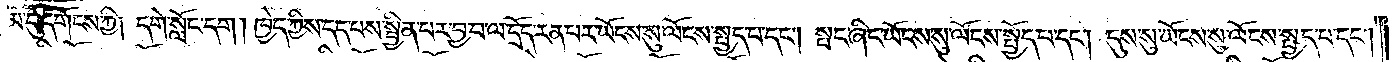སྙམ་དུ་དགོངས་ཀྱི། དགེ་སློང་དག། ཁྱེད་ཀྱིས་དད་པས་སྦྱིན་པར་བྱ་བ་ལ་དྲོད་རན་པར་ཡོངས་སུ་ལོངས་སྤྱད་པ་དང༌། སྤང་ཞིང་ཡོངས་སུ་ལོངས་སྤྱོད་པ་དང༌། དུས་སུ་ཡོངས་སུ་ལོངས་སྤྱད་པ་དང༌།
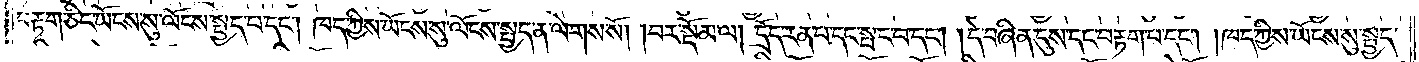བརྟག་ཅིང་ཡོངས་སུ་ལོངས་སྤྱད་པ་དང༌། ཁད་ཀྱིས་ཡོངས་སུ་ལོངས་སྤྱད་ན་ལེགས་སོ། །བར་སྡོམ་ལ། དྲོད་རན་པ་དང་སྤང་བ་དང༌། །དེ་བཞིན་དུས་དང་བརྟག་པ་དང༌། །ཁད་ཀྱིས་ཡོངས་སུ་སྤྱད་
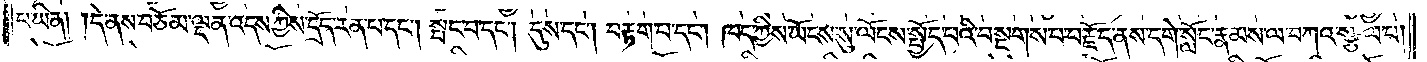པ་ཡིན། །དེ་ནས་བཅོམ་ལྡན་འདས་ཀྱིས་དྲོད་རན་པ་དང༌། སྤང་བ་དང༌། དུས་དང༌། བརྟག་པ་དང༌། ཁད་ཀྱིས་ཡོངས་སུ་ལོངས་སྤྱོད་པའི་བསྔགས་པ་བརྗོད་ནས་དགེ་སློང་རྣམས་ལ་བཀའ་སྩལ་པ།
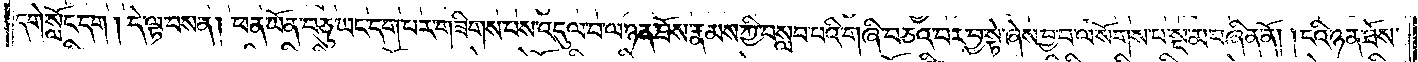དགེ་སློང་དག །དེ་ལྟ་བས་ན། ཕན་ཡོན་བཅུ་ཡང་དག་པར་གཟིགས་པས་འདུལ་བ་ལ་ཉན་ཐོས་རྣམས་ཀྱི་བསླབ་པའི་གཞི་བཅའ་བར་བྱ་སྟེ་ཞེས་བྱ་བ་ལ་སོགས་པ་སྔ་མ་བཞིན་ནོ། །ངའི་ཉན་ཐོས་
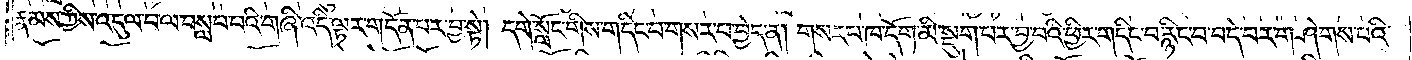རྣམས་ཀྱིས་འདུལ་བ་ལ་བསླབ་པའི་གཞི་འདི་ལྟར་གདོན་པར་བྱ་སྟེ། དགེ་སློང་གིས་གདིང་བ་གསར་པ་བྱེད་ན། གསར་པ་ཁ་དོག་མི་སྡུག་པར་བྱ་བའི་ཕྱིར་གདིང་བ་རྙིང་བ་བདེ་བར་གཤེགས་པའི་
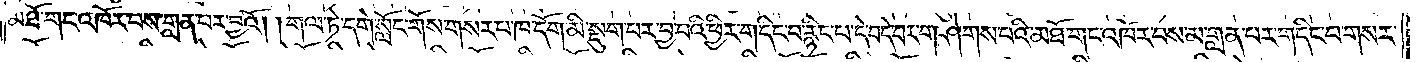མཐོ་གང་འཁོར་བས་གླན་པར་བྱའོ། །གལ་ཏེ་དགེ་སློང་གོས་གསར་པ་ཁ་དོག་མི་སྡུག་པར་བྱ་བའི་ཕྱིར་གདིང་བ་རྙིང་པ་དེ་བདེ་བར་གཤེགས་པའི་མཐོ་གང་འཁོར་བས་མ་གླན་པར་གདིང་བ་གསར་
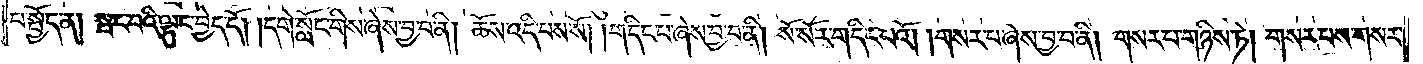པ་སྤྱོད་ན། སྤང་བའི་ལྟུང་བྱེད་དོ། །དགེ་སློང་གིས་ཞེས་བྱ་བ་ནི། ཆོས་འདི་པས་སོ། །གདིང་བ་ཞེས་བྱ་བ་ནི། སོ་སོར་གདིང་པའོ། །གསར་པ་ཞེས་བྱ་བ་ནི། གསར་པ་གཉིས་ཏེ། གསར་པས་གསར་
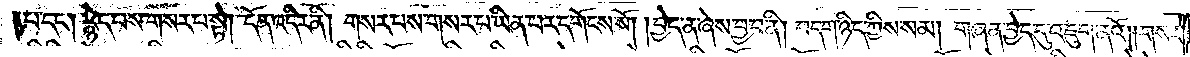པ་དང༌། རྙེད་པས་གསར་པ་སྟེ། དོན་འདིར་ནི། གསར་པས་གསར་པ་ཡིན་པར་དགོངས་སོ། །བྱེད་ན་ཞེས་བྱ་བ་ནི། བདག་ཉིད་ཀྱིས་སམ། གཞན་བྱེད་དུ་འཇུག་ནའོ། །གསར་
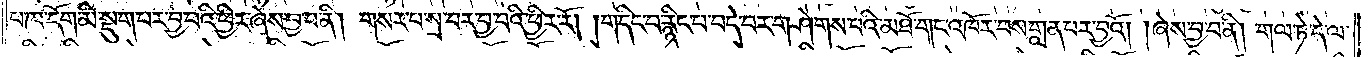པ་ཁ་དོག་མི་སྡུག་པར་བྱ་བའི་ཕྱིར་ཞེས་བྱ་བ་ནི། གསར་པ་སྲ་བར་བྱ་བའི་ཕྱིར་རོ། །གདིང་བ་རྙིང་པ་བདེ་བར་གཤེགས་པའི་མཐོ་གང་འཁོར་བས་གླན་པར་བྱའོ། །ཞེས་བྱ་བ་ནི། གལ་ཏེ་དེ་ལ་
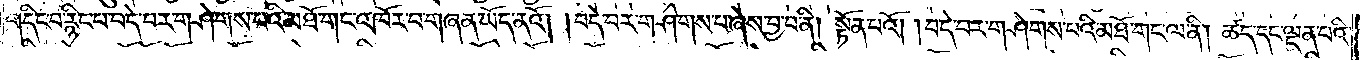གདིང་བ་རྙིང་བ་བདེ་བར་གཤེགས་པའི་མཐོ་གང་འཁོར་བ་གཞན་ཡོད་ནའོ། །བདེ་བར་གཤེགས་པ་ཞེས་བྱ་བ་ནི། སྟོན་པའོ། །བདེ་བར་གཤེགས་པའི་མཐོ་གང་ལ་ནི། ཚད་དང་ལྡན་པའི་
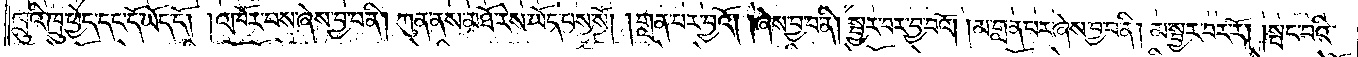ཁྲུའི་ཁྲུ་ཕྱེད་དང་དོ་ཡོད་དོ། །འཁོར་བས་ཞེས་བྱ་བ་ནི། ཀུན་ནས་མཐོ་རེས་ཡོད་པས་སོ། །གླན་པར་བྱའོ། །ཞེས་བྱ་བ་ནི། སྦྱར་བར་བྱ་བའོ། །མ་གླན་པར་ཞེས་བྱ་བ་ནི། མ་སྦྱར་བར་རོ། །སྤང་བའི་
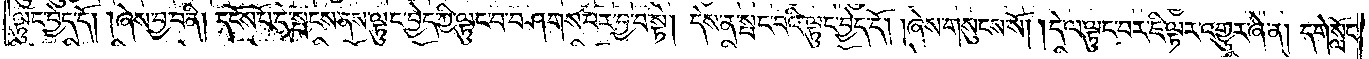ལྟུང་བྱེད་དོ། །ཞེས་བྱ་བ་ནི། དངོས་པོ་དེ་སྤངས་ནས་ལྟུང་བྱེད་ཀྱི་ལྟུང་བ་བཤགས་པར་བྱ་བ་སྟེ། དེས་ན་སྤང་བའི་ལྟུང་བྱེད་དོ། །ཞེས་གསུངས་སོ། །དེ་ལ་ལྟུང་བར་ཇི་ལྟར་འགྱུར་ཞེ་ན། དགེ་སློང་
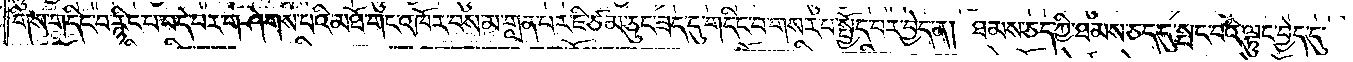གིས་གདིང་བ་རྙིང་པ་བདེ་བར་གཤེགས་པའི་མཐོ་གང་འཁོར་བས་མ་གླན་པར་ཇི་ཙམ་ཅུང་ཟད་དུ་གདིང་བ་གསར་པ་སྤྱོད་པར་བྱེད་ན། ཐམས་ཅད་ཀྱི་ཐམས་ཅད་དུ་སྤང་བའི་ལྟུང་བྱེད་དུ་
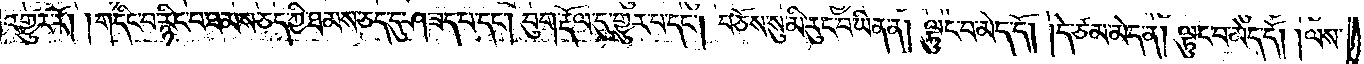འགྱུར་རོ། །གདིང་བ་རྙིང་པ་ཐམས་ཅད་ཀྱི་ཐམས་ཅད་དུ་ཤ་ཟད་པ་དང༌། བུག་རྡོལ་དུ་གྱུར་པ་དང༌། བཅོས་སུ་མི་རུང་བ་ཡིན་ན། ལྟུང་བ་མེད་དོ། །དེ་ཙམ་མེད་ན། ལྟུང་བ་མེད་དོ། །ལས་
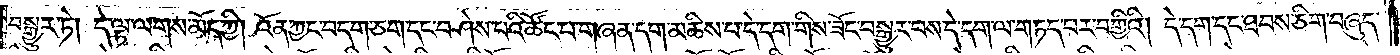བསྒྱུར་ཏེ། དེ་ལྟ་ལགས་མོད་ཀྱི། འོན་ཀྱང་བདག་ཅག་དང་བཤེས་པའི་ཚོང་པ་གཞན་དག་མཆིས་པ་དེ་དག་གིས་ཟོང་བསྒྱུར་བས་དེ་དག་ལ་གཏད་པར་བགྱིའི། དེ་དག་དང་ཐབས་ཅིག་བཞུད་
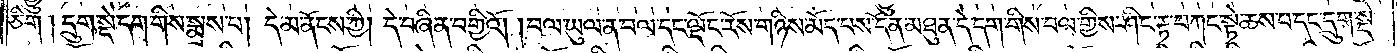ཅིག། དྲུག་སྡེ་དག་གིས་སྨྲས་པ། དེ་མ་ནོངས་ཀྱི། དེ་བཞིན་བགྱིའོ། །བལ་ཡུལ་ན་བལ་དང་ལྡོང་རོས་གཉིས་མོད་པས་དོན་མཐུན་དེ་དག་གིས་བལ་གྱིས་ཤིང་རྟ་བཀང་སྟེ་ཆས་པ་དང་དྲུག་སྡེ་
